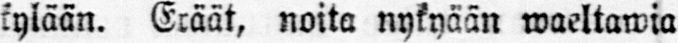kylään. Eräät, noita nykyään waeltawia
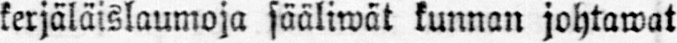kerjäläislaumoja sääliwät kunnan johtawat
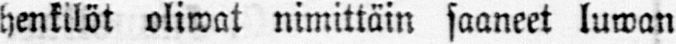henkilöt oliwat nimittäin saaneet luwan
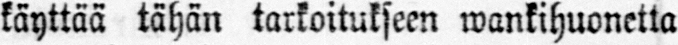käyttää tähän tarkoitukseen wankihuonetta
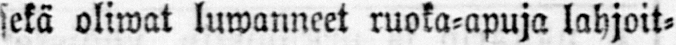sekä oliwat luwanneet ruoka-apuja lahjoit-
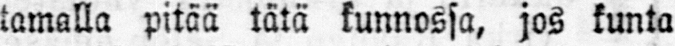tamalla pitää tätä kunnossa, jos kunta
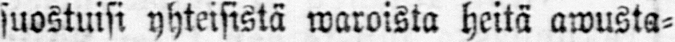suostuisi yhteisistä waroista heitä awusta-
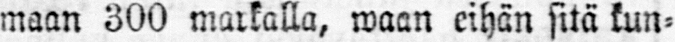maan 300 markalla, waan eihän sitä kun-
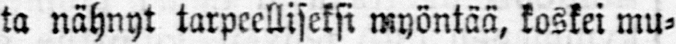ta nähnyt tarpeelliseksi myöntää, koskei mu-
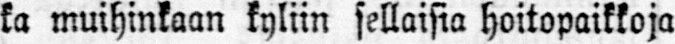ka muihinkaan kyliin sellaisia hoitopaikkoja
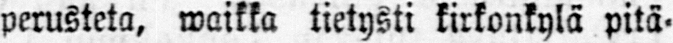perusteta, waikka tietysti kirkonkylä pitä-
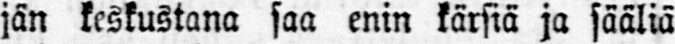jän keskustana saa enin kärsiä ja sääliä
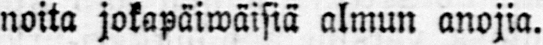noita jokapäiwäisiä almun anojia.
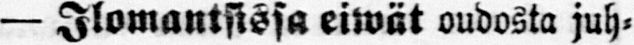— Ilomantsissa eiwät oudosta juh-
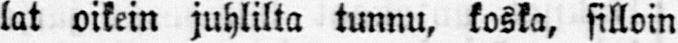lat oikein juhlilta tunnu, koska, silloin
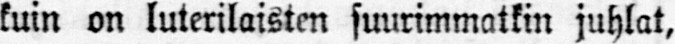kuin on luterilaisten suurimmatkin juhlat,
